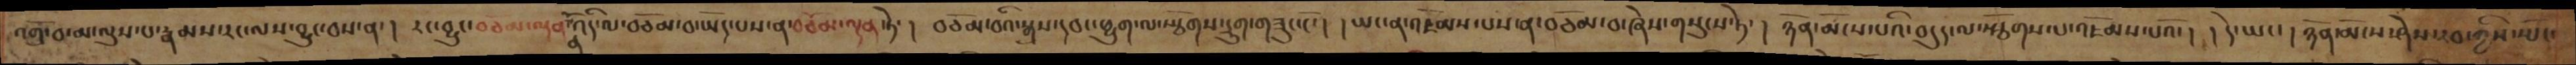འགྲོ་བ་མ་ལུས་པ་རྣམས་རང་ལས་བྱུང་བས་ན་། རང་བྱུང་བཅོམ་ལྡན་འདི་ལ་བཅོམ་བ་ཡོད་པས་ན་བཅོམ་ལྡན་སྟེ་། བཅོམ་བའི་སྒྲས་དབང་ཕྱུག་ལ་སྩོགས་དྲུག་གཟུང་ངོ་། །ཡང་ན་འཇོམས་པས་ན་བཅོམ་བ་ཞེས་གསུངས་ཏེ་། ཉོན་མོངས་པའི་བདུད་ལ་སྩོགས་པ་འཇོམས་པའོ་། དེ་ཡང་།ཉོན་མོངས་ཤེས་རབ་ཀྱིས་སྤོང་
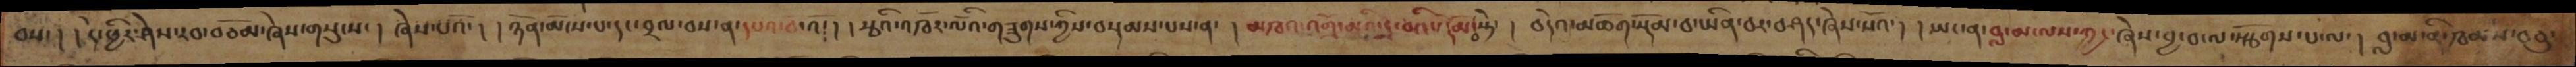བས་། །དེ་ཕྱིར་ཤེས་རབ་བཅོམ་ཞེས་གསུངས་། ཞེས་པའོ་། །ཉོན་མོངས་པ་དང་བྲལ་བས་ན་དཔའ་བ་འོ༴། །རྩའི་འཁོར་ལོའི་གཟུགས་ཀྱིས་བསྡམས་པས་ན་། མཁའ་འགྲོ་མའི་དྲ་བའི་སྡོམ་པ་སྟེ་། བདེའ་མཆོག་སྡོམ་བ་ཡིན་བར་བཤད་ཞེས་པའོ་། །ཡང་ན་བླ་མ་ལས་ཀྱང་ཞེས་བྱ་བ་ལ་སྩོགས་པ་ལ་། བླ་མ་ནི་ཁམས་བཅུ་
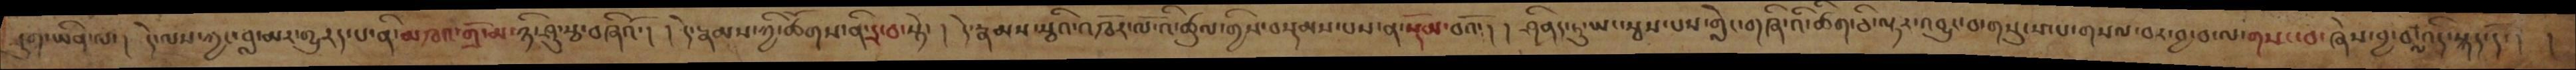དུག་ཡིན་ལ་། དེ་ལས་ཀྱང་བླ་མར་གྱུརད་པ་ནི་མཁའ་གྲོ་མ་ཉི་ཤུ་རྩ་བཞིའོ་། །དེ་རྣམས་ཀྱི་ཚོགས་ནི་དྲ་བ་སྟེ་། དེ་རྣམས་རྩིའ་འཁོར་ལོ་འི་ཚུལ་གྱིས་བསྡམས་པས་ན་སྡོམ་བའོ་། །ཤིནད་ཏུ་ཡང་སྦས་པས་གླེང་གཞི་འི་ཚིག་ཅི་ལྟར་འབྱུང་བ་གསུངས་པ་གསལ་བར་བྱ་བ་ལ་གསང་བ་ཞེས་བྱ་བ་ལ་འདི་སྐད་དོ་། །
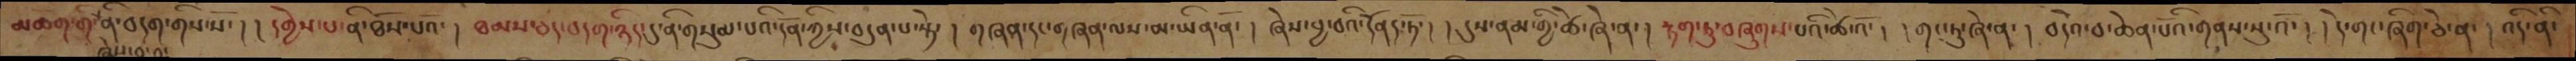མཆོག་གི་ནི་བདག་གིས་སོ་། །དགྱེས་པ་ནི་ཐོས་པའོ་། ཐམས་ཅད་བདག་ཉིད་དུ་ནི་གསུམ་པའི་དོན་ཀྱིས་བདུན་པ་སྟེ་། གཞན་དང་གཞན་ལས་མ་ཡིན་ནོ་། ཞེས་བྱ་བའི་དོནད་ཏོ་། །དུས་ནམ་གྱི་ཚེ་ཞེ་ན་། རྟག་ཏུ་བཞུགས་པའི་ཚེ་འོ་། །གང་ཏུ་ཞེ་ན་། བདེའ་བ་ཆེན་པོའི་གནས་སུ་འོ་། །དེ་གང་ཞིག་ཅེ་ན་། འདི་ནི་
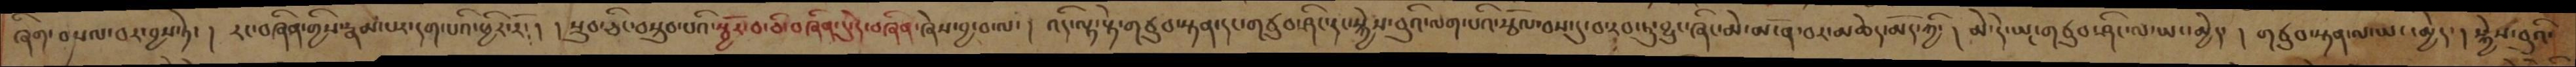ཞིག་བསལ་བར་བྱས་ཏེ་། རང་བཞིན་གྱིས་རྣམ་པར་དག་པའི་ཕྱིར་རོ་། །སྲུབ་ཅིང་བསྲུབ་པའི་སྦྱོར་བ་ཅི་བཞིན་དུ་དེ་བཞིན་ཞེས་བྱ་བ་ལ་། འདི་ལྟ་སྟེ་གཙུབ་སྟན་དང་གཙུབ་ཤིང་དང་སྐྱེས་བུའི་ལག་པའི་རྩོལ་བས་དུ་བ་རབ་ཏུ་བྱུང་ཞིང་མེ་མ་ན་བར་མཆེད་མོད་ཀྱི་། མེ་དེ་ཡང་གཙུབ་ཤིང་ལ་ཡང་མྱེད་། གཙུབ་སྟན་ལ་ཡང་མྱེད་། སྐྱེས་བུའི་
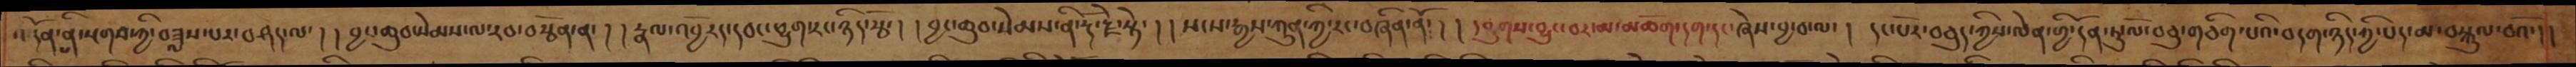་དོན་ནི་སྔགས་ཀྱི་བཟླས་པར་བཤད་ལ་། །བྱང་ཆུབ་སེམས་ལ་རབ་བརྩོན་ན་། །རྣལ་འབྱོརད་དབང་ཕྱུག་རང་ཉིད་རྩོ་། །བྱང་ཆུབ་སེམས་ནི་རྡོ་རྗེ་སྟེ་། །སངས་རྒྱས་ཀུན་ཀྱི་རང་བཞིན་ནོ༴། །དབུགས་བྱུང་བར་མ་མཆོག་དག་དང་ཞེས་བྱ་བ་ལ་། དང་པོར་བཅུད་ཀྱིས་ལེན་གྱི་དོན་ཏུ་ལོ་བཅུ་གཅིག་པའི་བདག་ཉིད་ཀྱི་པད་མ་བསྐུལ་བའོ་།།
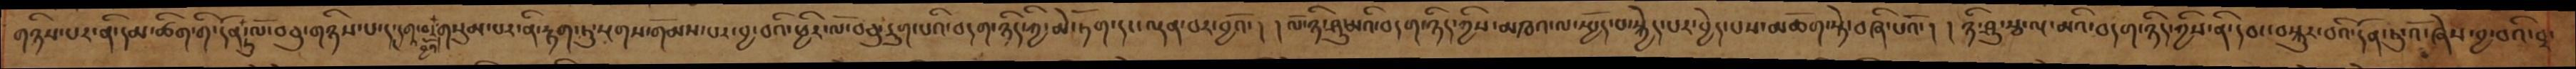གཉིས་པར་ནི་དམ་ཚིག་གི་དོན་ཏུ་ལོ་བཅུ་གཉིས་པ་དང་དགའ་བ་བྱའོ། གསུམ་པར་ནི་རྟག་ཏུ་སྔགས་གོམས་པར་བྱ་བའི་ཕྱིར་ལོ་བཅུ་དྲུག་པའི་བདག་ཉིད་ཀྱི་མེ་ཏོག་དང་ལྡན་པར་བྱའོ་། །ལོ་ཉི་ཤུ་པའི་བདག་ཉིད་ཀྱིས་མཁའ་ལ་སྤྱོད་པ་སྐྱེད་པར་བྱེད་པས་མཆོག་སྟེ་བཞི་པའོ་། །ཉི་ཤུ་རྩ་ལྔ་མའི་བདག་ཉིད་ཀྱིས་ནི་དབང་བསྐུར་བའི་དོན་ཏུ་འོ་ཞེས་བྱ་བའི་བར
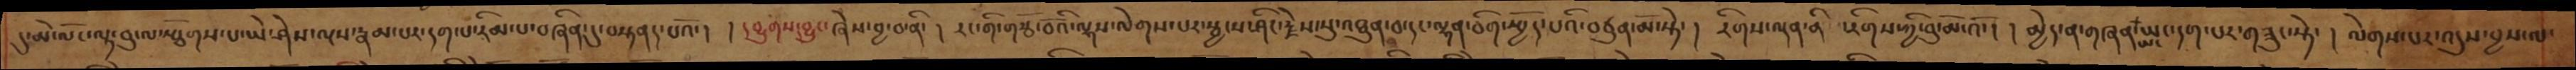དུ་མེ་ལོང་ལྟ་བུ་ལ་སྩོགས་པ་ཡེ་ཤེས་ལྔས་རྣམ་པར་དག་པ་རིམ་པ་བཞིན་དུ་བསྟནད་པའོ་། །དབྱུགས་བྱུང་ཞེས་བྱ་བ་ནི་། རང་གི་གརྩོ་བོའི་ལྷས་ལེགས་པར་སྦྱངས་ཤིང་རྗེས་སུ་འཐུན་བ་དང་ལྷན་ཅིག་སྤྱོད་པའི་བཙུན་མོ་སྟེ་། རིགས་ལྡན་ནི་རིགས་ཀྱི་བུ་མོ་འོ་། །མྱེད་ན་གཞན་ཡང་ཡང་དག་པར་གཟུང་སྟེ་། ལེགས་པར་འདུས་བྱས་ལ་
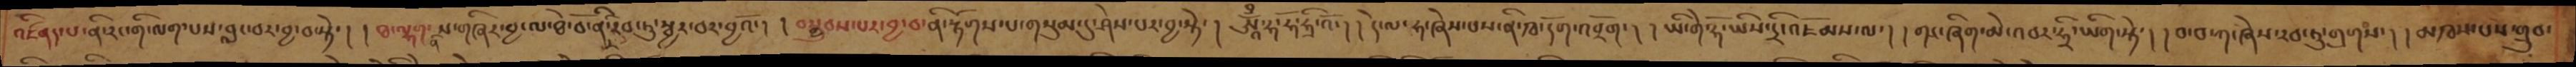འཛིནད་པ་ནི་རང་གི་ལག་པས་བླང་བར་བྱ་བ་སྟེ། །ཐ་ལྷག་ནི་ས་གཞིར་བྱ་ལ་ཐེ་བོ་ནི་རབ་ཏུ་སྦྱར་བར་བྱའོ་། །བསྒྲུབས་པར་བྱ་བ་ནི་རྟོགས་པ་གསུམ་དུ་ཤེས་པར་བྱ་སྟེ་། ཨཱོྃ་ཧ་ཧོ་ཧྲི་འོ་། །དེ་ལ་ཧ་ཞེས་པས་ནི་ཁ་དོག་འཕྲོག་། །ཡི་གེ་ཧོ་ཡིས་དྲི་འཇོམས་ལ་། །གང་ཞིག་མེ་འབར་ཧྲི་ཡིག་སྟེ་། །བ་བ་ཀ་ཞེས་རབ་ཏུ་གྲགས་། །མཁས་པས་གྲུབ་
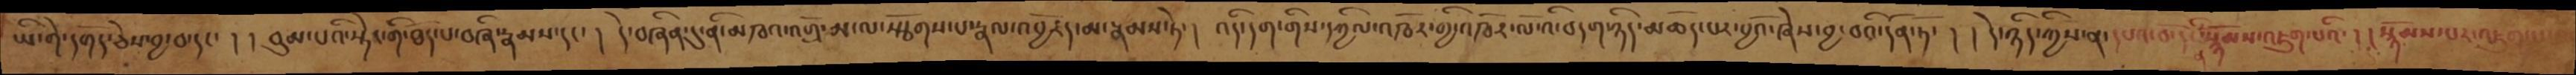ཡི་གེ་དགོད་ཅེས་བྱ་བ་དང་། །བུམ་པའི་སྟེང་གི་ཐོད་པ་བཞི་རྣམས་དང་། དེ་བཞིན་དུ་ནི་མཁའ་འགྲོ་མ་ལ་སྩོགས་པ་རྣལ་འབྱོརད་མ་རྣམས་ཏེ་། འདི་དག་གིས་དཀྱིལ་འཁོར་གྱི་འཁོར་ལོ་འི་བདག་ཉིད་མཆོད་པར་བྱའོ་ཞེས་བྱ་བའི་དོན་ཏོ་། །དེ་ཉིད་ཀྱིས་ན་དཔའ་བོ་དང་ནི་སྙོམས་འཇུག་པའི། །སྙོམས་པར་འཇུག་པར་
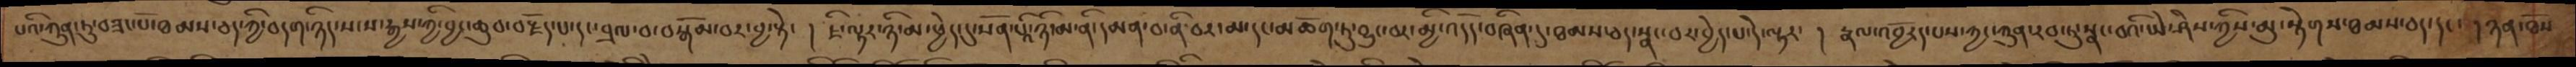པའི་ཀུན་ཏུ་བཟང་པོ་ཐམས་ཅད་ཀྱི་བདག་ཉིད་སངས་རྒྱས་ཀྱི་བྱང་ཆུབ་བརྗོད་པ་དང་བྲལ་བ་བསྒོམ་བར་བྱ་སྟེ་། ཇི་ལྟར་ཉི་མ་ཕྱེད་དུ་སོན་པའི་ཉི་མ་ནི་དམན་བ་ནི་བར་མ་དང་མཆོག་ཏུ་བྱུང་བར་མྱི་འདོད་བཞིན་དུ་ཐམས་ཅད་སྣང་བར་བྱེད་པ་དེ་ལྟར་། རྣལ་འབྱོརད་པས་ཀྱང་ཀུན་རབ་ཏུ་སྣང་བའི་ཡེ་ཤེས་ཀྱིས་མུ་སྟེགས་ཐམས་ཅད་དང་། ཉན་ཐོས
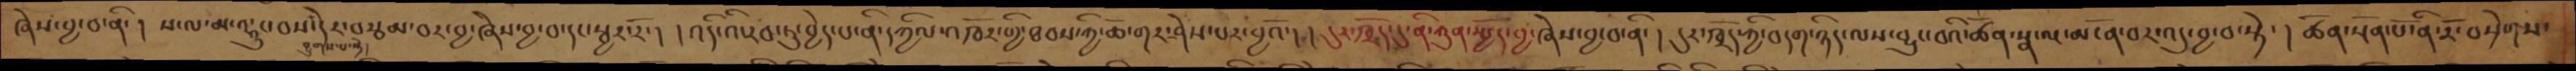ཞེས་བྱ་བ་ནི་། ས་ལ་མ་ལྷུང་བས་དེར་བརྩམ་བར་བྱ་ཞེས་བྱ་བ་དང་སྦྱར་རོ་། །འདི་འི་རབ་ཏུ་བྱེད་པ་ནི་དཀྱིལ་འཁོར་གྱི་ཐབས་ཀྱི་ཆོ་གར་ཤེས་པར་བྱའོ་། །དུར་ཁྲོད་དུ་ནི་ཀུན་སྤྱོད་བྱ་ཞེས་བྱ་བ་ནི་། དུར་ཁྲོད་ཀྱི་བདག་ཉིད་ལས་བྱུང་བའི་ཚོན་སྣ་ལྔ་མངོན་བར་འདུ་བྱ་བ་སྟེ་། ཚོན་སྔོན་པོ་ནི་རོ་བསྲེགས་
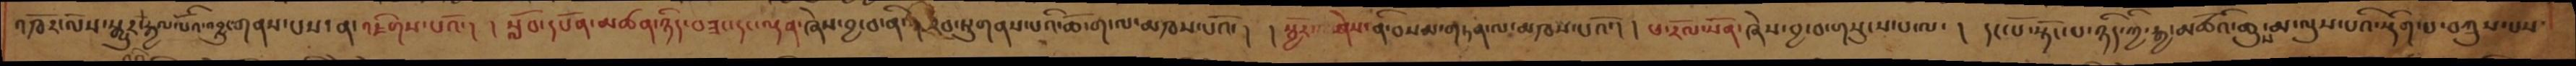འཁོར་ལོས་སྒྱུར་བའི་རྒྱལ་པོའི་འབྱུང་གནས་པས་ན་འཇིགས་པའོ་། །སློབ་དཔོན་མཚན་ཉིད་བཟང་དང་ལྡན་ཞེས་བྱ་བ་ནི་། རབ་ཏུ་གནས་པའི་ཆོ་ག་ལ་མཁས་པའོ་། །སྦྱོར་ཤེས་ནི་བསམ་གཏན་ལ་མཁས་པའོ་། །ཕ་རོལ་སོན་ཞེས་བྱ་བ་གསུངས་པ་ལ་། དང་པོ་སྟོང་པ་ཉིད་ཀྱི་རྒྱ་མཚོའི་ཆུས་མ་ལུས་པའི་སྡིག་པ་བཀྲུས་པས་
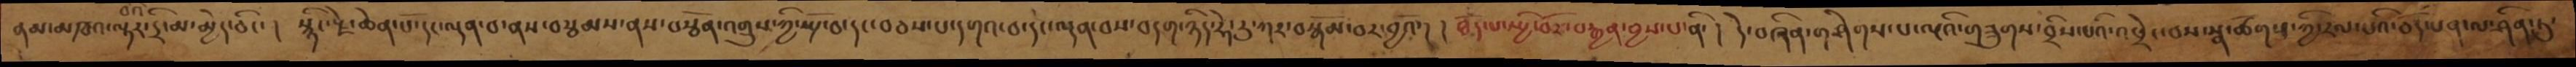ནམ་མཁའ་ལྟར་དྲི་མ་མྱེད་ཅིང་། སྙིང་རྗེ་ཆེན་པོ་དང་ལྡན་བ་ནས་བརྩམས་ནས་བརྩོན་འགྲུས་ཀྱི་སྤྲོ་བ་དང་བཅས་པ་དགའ་བ་དང་ལྡན་བས་བདག་ཉིད་ཧེ་རུ་ཀར་བསྒོམ་བར་བྱའོ་། །ཐོད་པ་སྤྱི་བོར་བརྒྱན་བྱས་པ་ནི་། དེ་བཞིན་གཤེགས་པ་ལྔའི་གཟུགས་བྲིས་པའི་འཕྲེང་བས་སྣ་ཚོགས་ཀྱི་རོལ་པའི་ཅོད་པན་ལ་ཤིན་ཏུ་
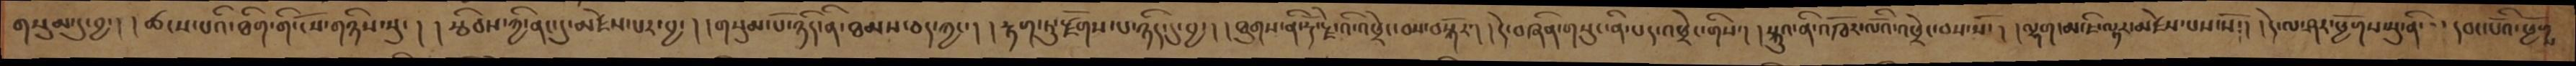གསུམ་དུ་བྱ་། །ཚངས་པའི་ཐིག་གི་ངོས་གཉིས་སུ་། །རྩིབས་ཀྱི་ནང་དུ་མཛེས་པར་བྱ་། །གསུམ་པོ་ཉིད་ནི་ཐམས་ཅད་ཀྱང་། །རྟག་ཏུ་རྫོགས་པ་ཉིད་དུ་བྱ་། །ཐུགས་ནི་རྡོ་རྗེའི་འཕྲེང་བས་བསྐོར་། །དེ་བཞིན་གསུང་ནི་པད་འཕྲེང་གིས་། །སྐུའ་ནི་འཁོར་ལོའི་འཕྲེང་བས་སོ་། །ལྷག་མ་ཇི་ལྟར་མཛེས་པས་སོ་། །དེ་ལ་ཤར་ཕྱོགས་སུ་ནི་་་དབང་པོའི་ཕྱོགས
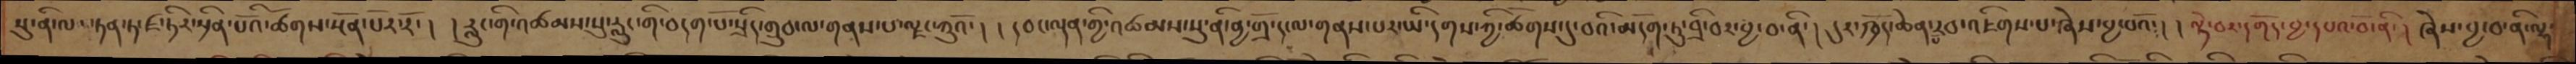སུ་ནི་ལ་ཏན་ཏ་ཛ་ཏིར་སྲིན་པོའི་སྔོན་པོར་རོ་། །རླུང་གི་འཚམས་སུ་རླུང་གི་བདག་པོ་སྲིད་གྲུབ་ལ་གནས་པ་ལྗང་ཀུའོ་། །བང་ལྡན་གྱི་འཚམས་སུ་ནི་ནྱ་གྲོ་ད་ལ་གནས་པར་ཡི་དགས་ཀྱི་ཚོགས་དུ་བའི་མདོག་ཏུ་བྲི་བར་བྱ་བ་ནི་། །དུར་ཁྲོད་ཆེན་པོ་རབ་འཇིགས་པ་ཞེས་བྱ་བའོ༴། །ལྟེ་བར་དགོད་བྱ་དཔའ་བོ་ནི་། ཞེས་བྱ་བ་ནི་ལྷ་
